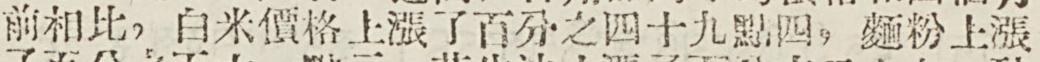前相比，白米價格上漲了百分之四十九點四，麵粉上漲
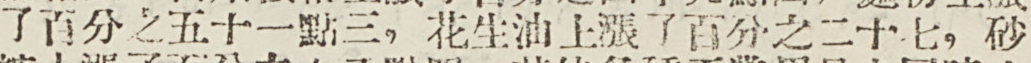了百分之五十一點三，花生油上漲了百分之二十七，砂
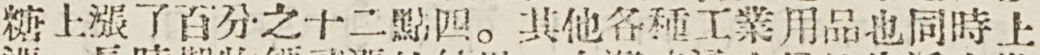糖上漲了百分之十二點四。其他各種工業用品也同時上
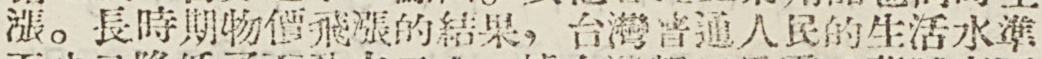漲。長時期物價飛漲的結果，台灣普通人民的生活水準
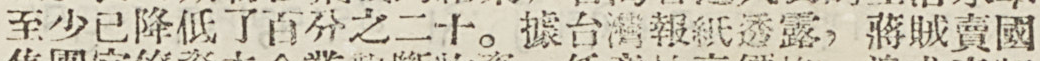至少已降低了百分之二十。據台灣報紙透露，蔣賊賣國
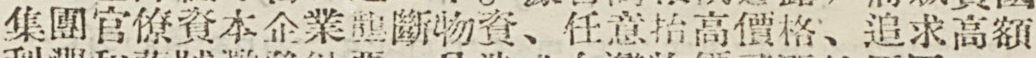集團官僚資本企業壟斷物資、任意抬高價格、追求高額
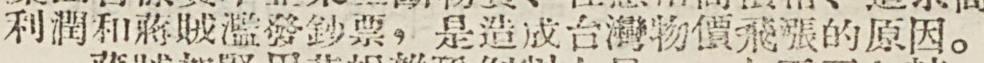利潤和蔣賊濫發鈔票，是造成台灣物價飛漲的原因。
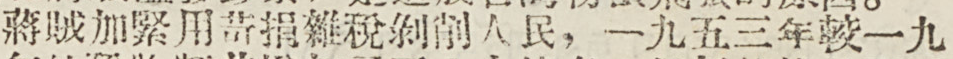蔣賊加緊用苛捐雜稅剝削人民，一九五三年較一九
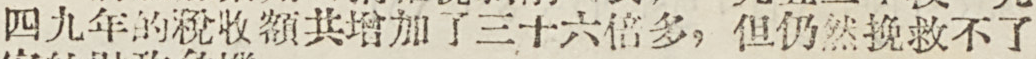四九年的稅收額共增加了三十六倍多，但仍然挽救不了
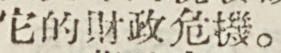他的財政危機。
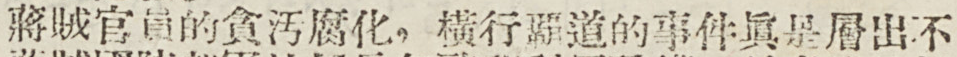蔣賊官員的貪污腐化，橫行霸道的事件眞是層出不
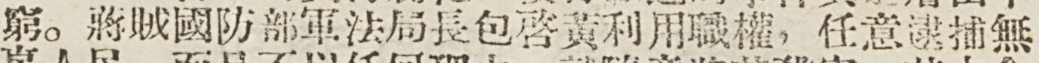窮。蔣賊國防部軍法局長包啓黃利用職權，任意逮捕無
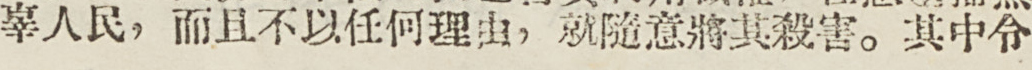辜人民，而且不一任何理由，就隨意將其殺害。其中令
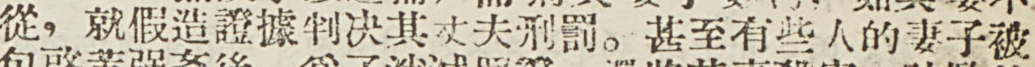從，就假造證據判決其丈夫刑罰。甚至有些人的妻子被
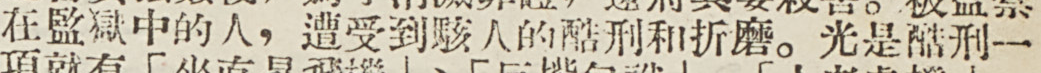在監獄中的人，遭受到駭人的酷刑和折磨。光是酷刑一
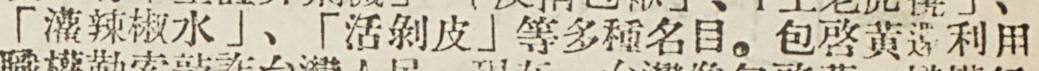「灌辣椒水」、「活剝皮」等多種名目。包啓黃還利用
